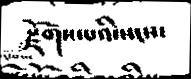རྫོགས་པའི་སངས་
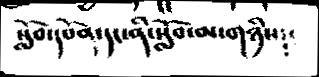སློབ་དཔོན་དང་ནི་སློབ་མ་གཉིས༴་
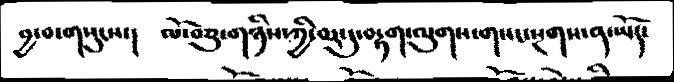བྱ་བ་གསུངས་།  ལོ་བཅུ་གཉིས་ཀྱི་བར་དུ་བརྟག་ལུགས་གསང་སྔགས་ན་ཡོད་
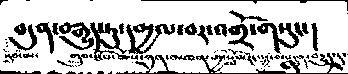བདུན་བརྒྱུད་ཏུ་དམྱལ་བར་འགྲོ་གསུང་།
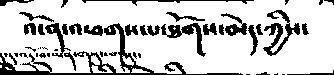འོ་ན་འཕགས་པ་ཐོགས་མེད་ཀྱིས་
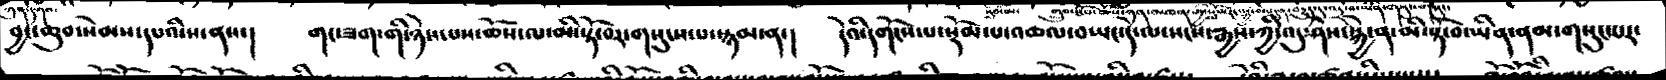བྱང་ཆུབ་སེམས་དཔའི་ས་ནས་།   གང་ཟག་གི་ཉེས་པས་ཆོས་ལ་མི་སྟོ་བར་གསུངས་པ་སྙམ་ན་།   དེའི་དགོངས་པ་སྡོམ་པ་འཆལ་བཡང་དེ་ལ་སངས་རྒྱས་ཀྱི་འདུ་ཤེས་སྐྱེ་ན་མི་སྟོ་བ་ཡིན་ནམ་གསུང་པར་
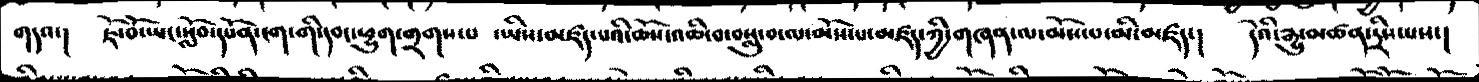གདའ་།   ཇོ་བོ་ཡང་སློབ་དཔོན་ངག་གི་དབང་ཕྱུག་གྲགས་པ   ་ཡིས་མཛད་པའི་ཆོས་འཆི་བ་བསླུ་བ་ལ་མོས་པ་མཛད་ཀྱི་གཞན་ལ་མོས་པ་མི་མཛད་།   དེའི་རྒྱུ་མཚན་དྲིས་པས་།
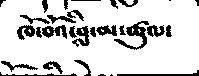ཁོ་བོའི་བླ་མ་ཚུལ་
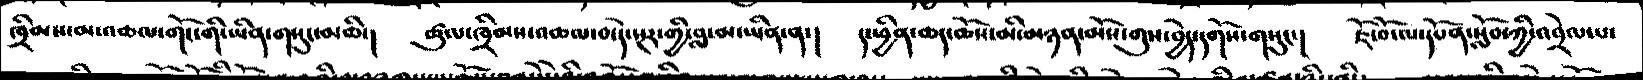ཁྲིམས་མ་འཆལ་གོང་ཡིན་གསུང་མཆི་།   ཚུལ་ཁྲིམས་འཆལ་བ་དེ་སྔར་གྱི་བླ་མ་ཡིན་ན་།    ད་ཕྱིན་ཆད་ཆོས་མི་མཉན་མོས་གུས་བྱེད་དགོས་གསུང་།   ཇོ་བོ་ལ་དཔོན་སློབ་ཀྱི་འབྲེལ་པ་
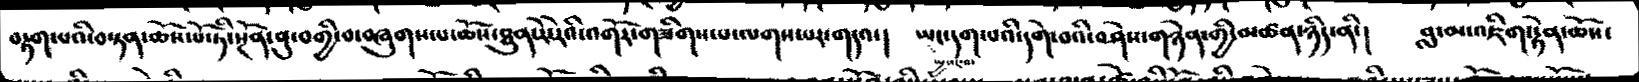བརྟག་པའི་བསྟན་ཆོས་པོ་ཏི་སྔོན་བུ་བགྱི་བ་བཞུགས་པ་ཆོས་ཐུན་རེ་རེའི་འགོར་གཟིགས་ལ་ལགས་པར་གདའ།   ཡང་དག་པའི་དགེ་བཤེས་གཉེན་གྱི་མཚན་ཉིད་ནི་།   བླ་མ་འཇིག་རྟེན་ཆོས་
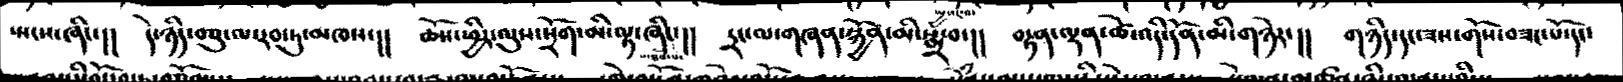ཡངས་ཞིང་།།   དེ་ཉིད་བཅུ་ལ་རབ་ཏུ་མཁས་།།   ཆོས་ཕྱིར་ལུས་སྲོག་མི་ལྟ་ཞིང་།།    ཏྲང་ལ་གཞན་སྐྱོན་མི་སྨྲ་བ་།།   བརྟན་ལྡན་ཚེ་འདི་དོན་མི་གཉེར་།།   གཉིད་དང་ཟས་གོས་བཟང་པོ་དང་
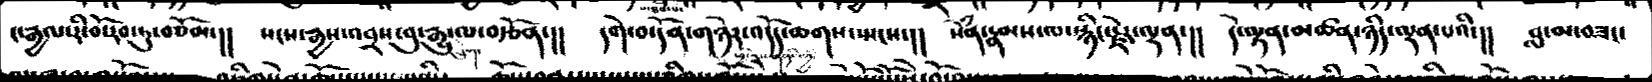ང་རྒྱལ་རི་བོ་རབ་ཏུ་བཅོམ་།།   སངས་རྒྱས་འབྲས་བུ་རྒྱུ་ལ་བརྩོན་་།།   དགེ་བ་དོན་གཉེར་འདོད་ཆགས་སྤངས་།།   སེཾས་རྣམས་ལ་སྙིང་རྗེར་ལྡན་།།   དེ་ལྡན་མཚན་ཉིད་ལྡན་པའི་།།   བླ་མ་བཟང་
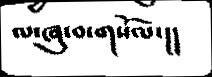ལ་ཞུ་བ་གསོལ་།།
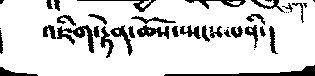འཇིག་རྟེན་ཆོས་སྤངས་པ་ནི་།
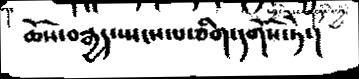ཆོས་བརྒྱད་སྤངས་པ་ཅིག་དགོས་ཏེ་།
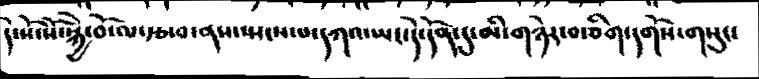དེ་སོ་སོ་སྐྱེ་བོ་ལ་རྩ་བ་ནས་སྤངས་པ་དཀའ་ཡང་དེ་དོན་དུ་མི་གཉེར་བ་ཅིག་དགོས་གསུང་
